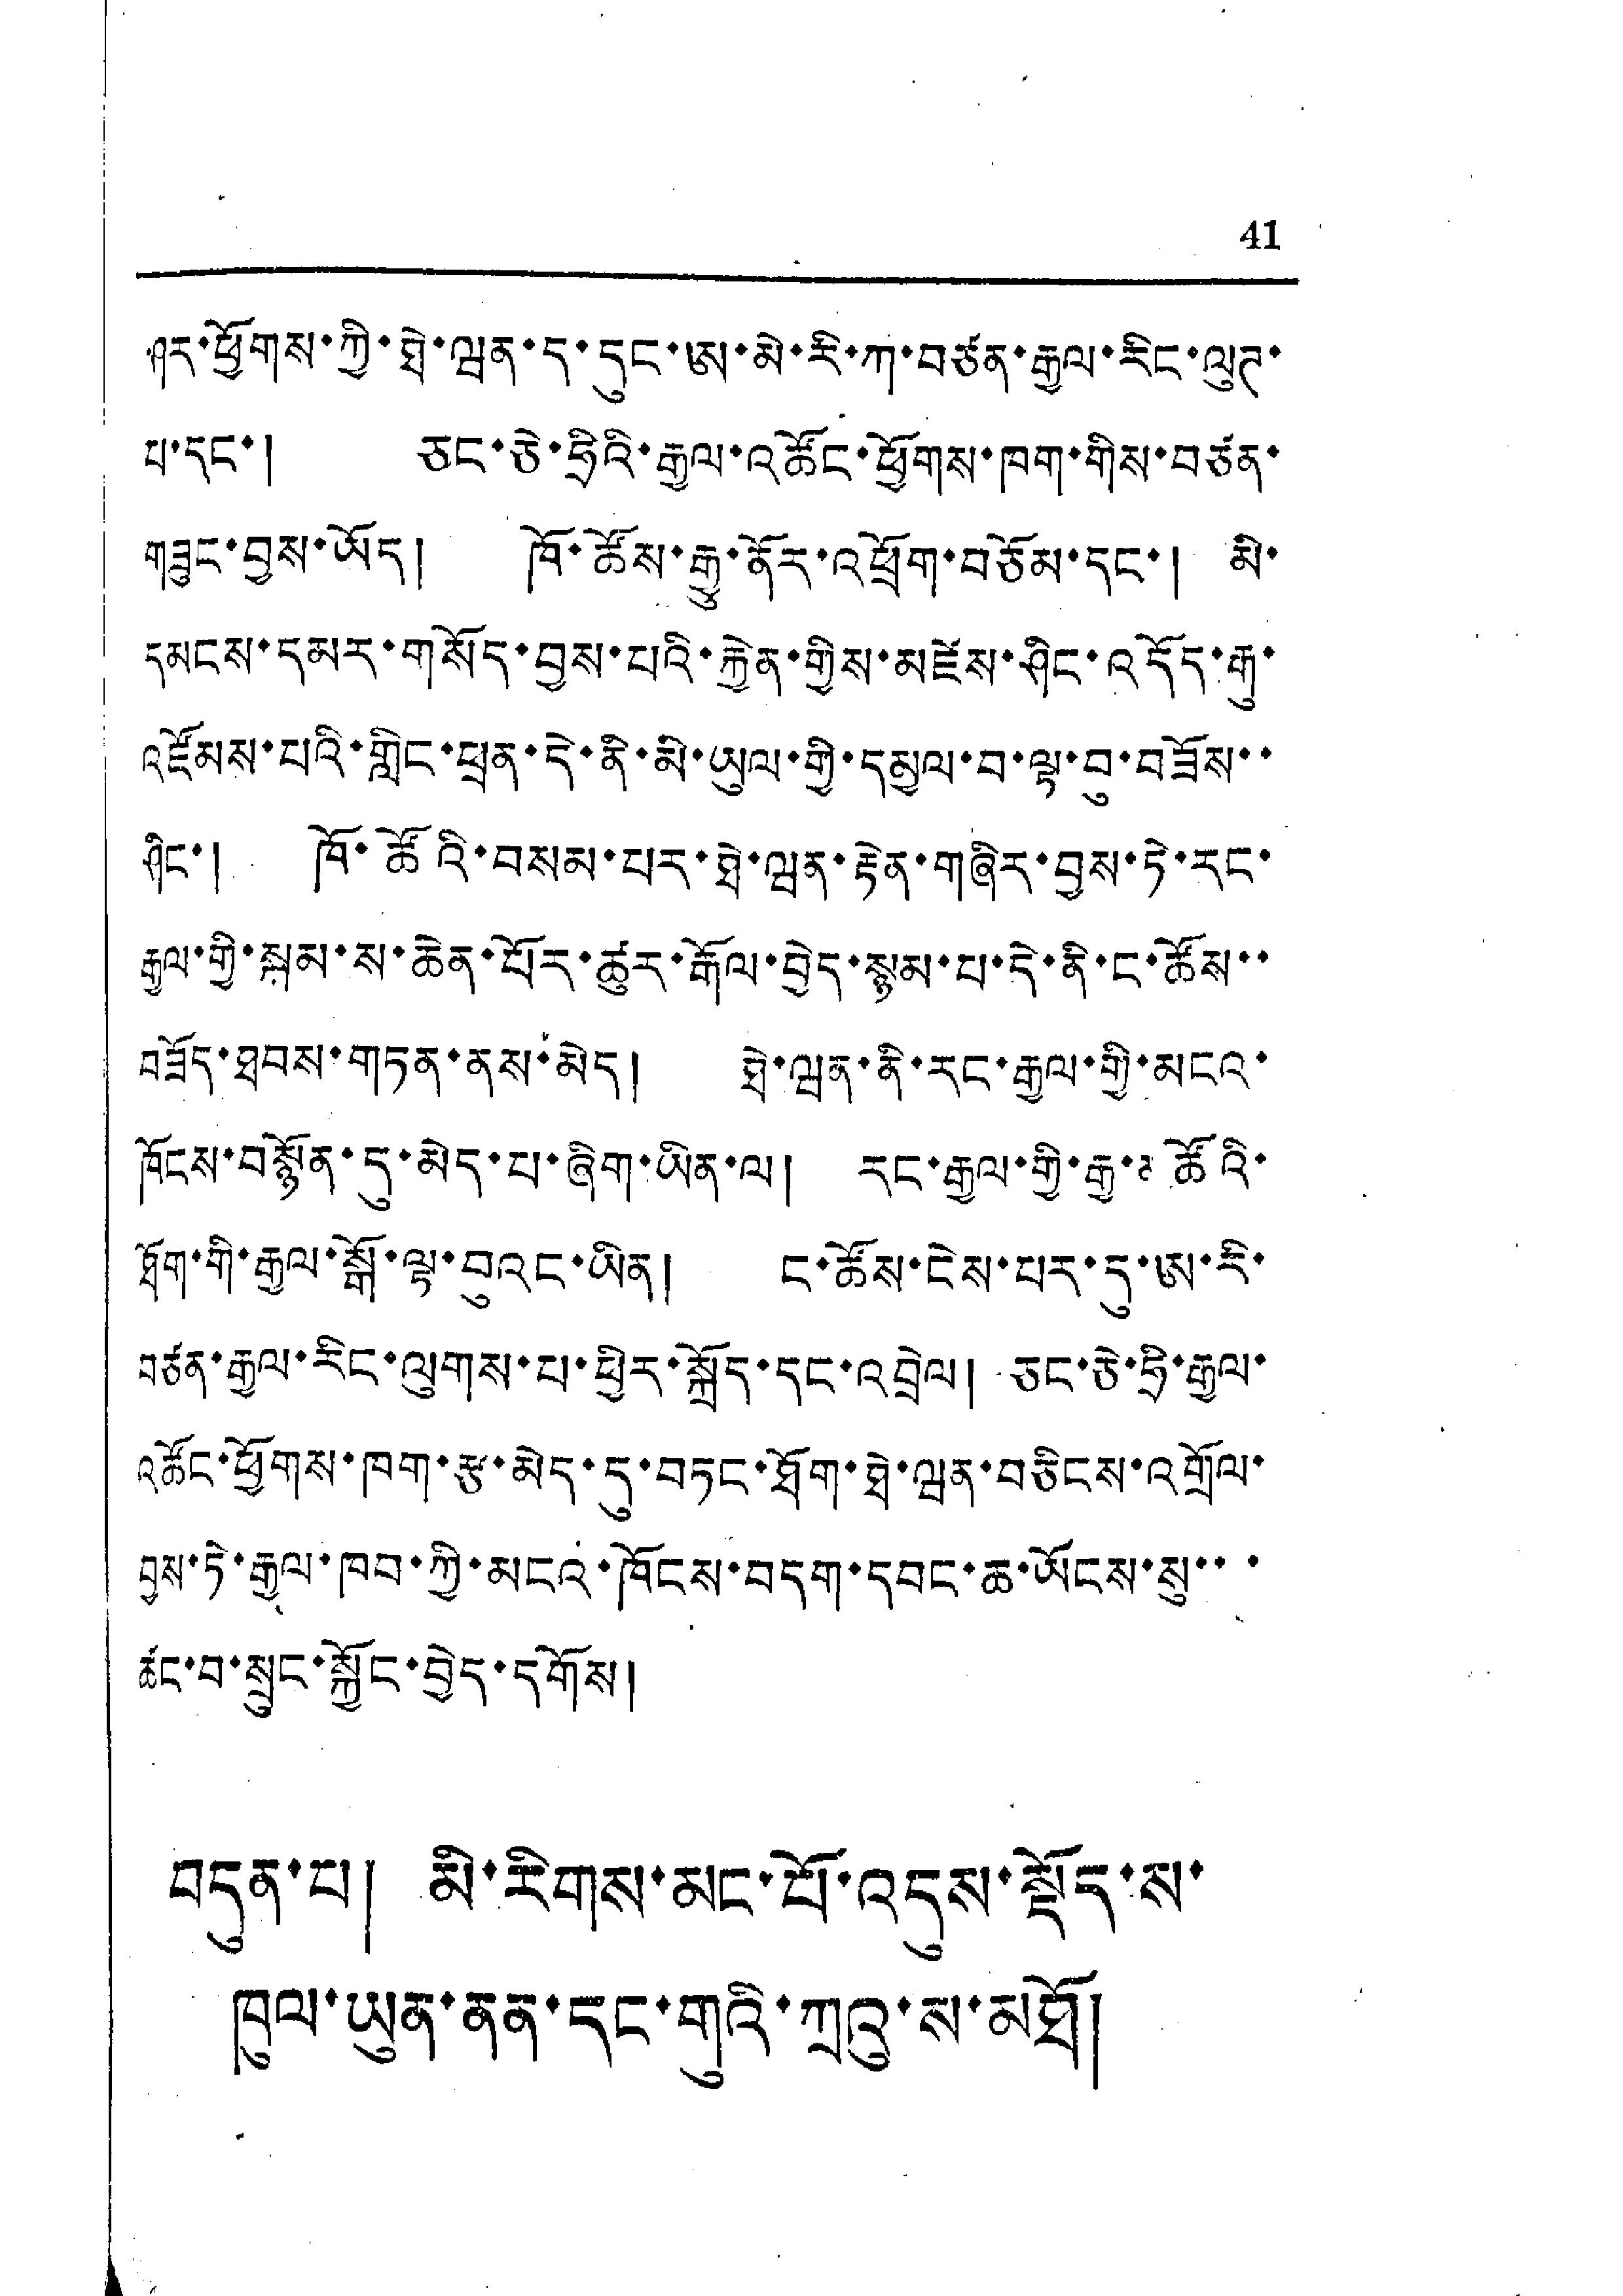41
ཤར་ཕྱོགས་ཀྱི་ཐེ་ཝན་ད་དུང་ཨ་མེ་རི་ཀ་བཙན་རྒྱལ་རིང་ལུཊ་
པ་དང་། ཅང་ཅེ་ཧྲིའི་རྒྱལ་འཚོང་ཕྱོགས་ཁག་གིས་བཙན་
གཟུང་བྱས་ཡོད། ཁོ་ཚོས་རྒྱུ་ནོར་འཕྲོག་བཅོམ་དང་། མི་
དམངས་དམར་གསོད་བྱས་པའི་རྐྱེན་གྱིས་མཛེས་ཤིང་འདོད་རྒུ་
འཛོམས་པའི་གླིང་ཕྲན་དེ་ནི་མི་ཡུལ་གྱི་དམྱལ་བ་ལྟ་བུ་བཟོས་་
ཞིང་། ཁོ་ཚོའི་བསམ་པར་ཐེ་ཝན་རྟེན་གཞིར་བྱས་ཏེ་རང་
རྒྱལ་གྱི་སྐམ་ས་ཆེན་པོར་ཚུར་རྒོལ་བྱེད་སྙམ་པ་དེ་ནི་ང་ཚོས་་
བཟོད་ཐབས་གཏན་ནས་མེད། ཐེ་ཝན་ནི་རང་རྒྱལ་གྱི་མངའ་
ཁོངས་བསྙོན་དུ་མེད་པ་ཞིག་ཡིན་ལ། རང་རྒྱལ་གྱི་རྒྱ་མཚོའི་
ཐོག་གི་རྒྱལ་སྒོ་ལྟ་བུའང་ཡིན། ང་ཚོས་ངེས་པར་དུ་ཨ་རི་
བཙན་རྒྱལ་རིང་ལུགས་པ་ཕྱིར་སྐྱོད་དང་འབྲེལ། ཅང་ཅེ་ཧྲི་རྒྱལ་
འཚོང་ཕྱོགས་ཁག་རྩ་མེད་དུ་བཏང་ཐོག་ཐེ་ཝན་བཅིངས་འགྲོལ་
བྱས་ཏེ་རྒྱལ་ཁབ་ཀྱི་མངའ་ཁོངས་བདག་དབང་ཆ་ཡོངས་སུ་་་
ཚང་བ་སྲུང་སྐྱོང་བྱེད་དགོས།
བདུན་པ། མི་རིགས་མང་པོ་འདས་སྡོད་ས་
ཁུལ་ཡུན་ནན་དང་གུའི་ཀྲའུ་ས་མཐོ།
